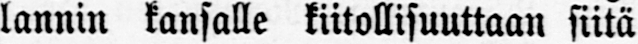lannin kansalle kiitollisuuttaan siitä
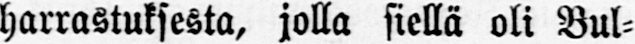harrastuksesta, jolla siellä oli Bul-
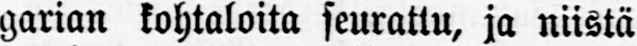garian kohtaloita seurattu, ja niistä
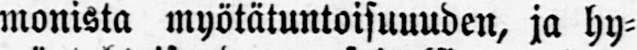monista myötätuntoisuuuden, ja hy-
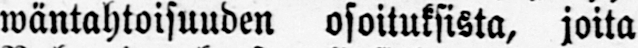wäntahtoisuuden osoituksista, joita
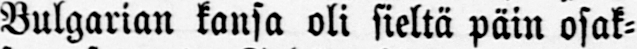Bulgarian kansa oli sieltä päin osak-
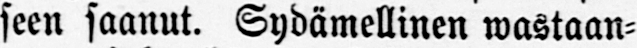seen saanut. Sydämellinen wastaan-
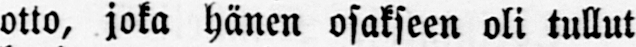otto, joka hänen osakseen oli tullut
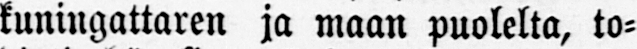kuningattaren ja maan puolelta, to-
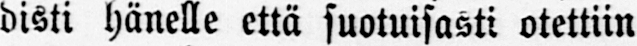disti hänelle että suotuisasti otettiin
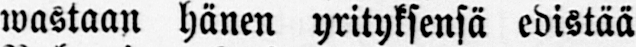wastaan hänen yrityksensä edistää
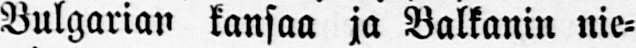Bulgarian kansaa ja Balkanin nie-
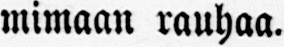mimaan rauhaa.
